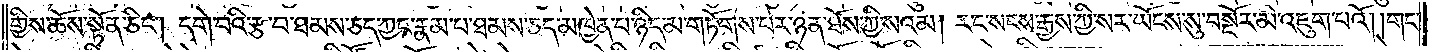གྱིས་ཆོས་སྟོན་ཅིང༌། དགེ་བའི་རྩ་བ་ཐམས་ཅད་ཀྱང་རྣམ་པ་ཐམས་ཅད་མཁྱེན་པ་ཉིད་མ་གཏོགས་པར་ཉན་ཐོས་ཀྱི་སའམ། རང་སངས་རྒྱས་ཀྱི་སར་ཡོངས་སུ་བསྔོར་མི་འཇུག་པའོ། །གང་
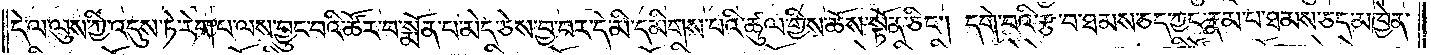དེ་ལ་ལུས་ཀྱི་འདུས་ཏེ་རེག་པ་ལས་བྱུང་བའི་ཚོར་བ་སྨོན་པ་མེད་ཅེས་བྱ་བར་དེ་མི་དམིགས་པའི་ཚུལ་གྱིས་ཆོས་སྟོན་ཅིང༌། དགེ་བའི་རྩ་བ་ཐམས་ཅད་ཀྱང་རྣམ་པ་ཐམས་ཅད་མཁྱེན་
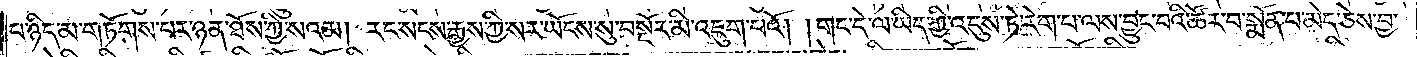པ་ཉིད་མ་གཏོགས་པར་ཉན་ཐོས་ཀྱི་སའམ། རང་སངས་རྒྱས་ཀྱི་སར་ཡོངས་སུ་བསྔོར་མི་འཇུག་པའོ། །གང་དེ་ལ་ཡིད་ཀྱི་འདུས་ཏེ་རེག་པ་ལས་བྱུང་བའི་ཚོར་བ་སྨོན་པ་མེད་ཅེས་བྱ་
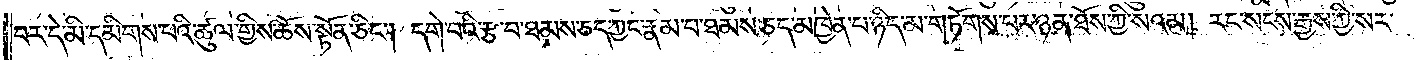བར་དེ་མི་དམིགས་པའི་ཚུལ་གྱིས་ཆོས་སྟོན་ཅིང༌། དགེ་བའི་རྩ་བ་ཐམས་ཅད་ཀྱང་རྣམ་པ་ཐམས་ཅད་མཁྱེན་པ་ཉིད་མ་གཏོགས་པར་ཉན་ཐོས་ཀྱི་སའམ། རང་སངས་རྒྱས་ཀྱི་སར་
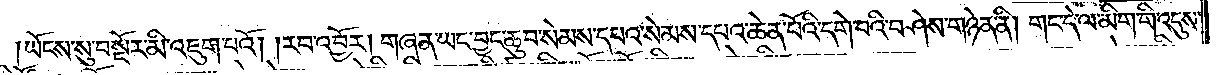ཡོངས་སུ་བསྔོར་མི་འཇུག་པའོ། །རབ་འབྱོར། གཞན་ཡང་བྱང་ཆུབ་སེམས་དཔའ་སེམས་དཔའ་ཆེན་པོའི་དགེ་བའི་བཤེས་གཉེན་ནི། གང་དེ་ལ་མིག་གི་འདུས་
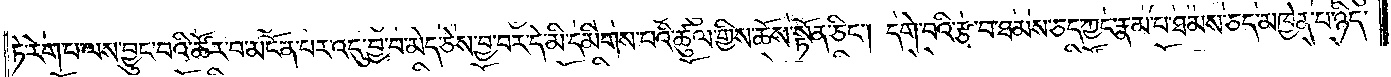ཏེ་རེག་པ་ལས་བྱུང་བའི་ཚོར་བ་མངོན་པར་འདུ་བྱ་བ་མེད་ཅེས་བྱ་བར་དེ་མི་དམིགས་པའི་ཚུལ་གྱིས་ཆོས་སྟོན་ཅིང༌། དགེ་བའི་རྩ་བ་ཐམས་ཅད་ཀྱང་རྣམ་པ་ཐམས་ཅད་མཁྱེན་པ་ཉིད་
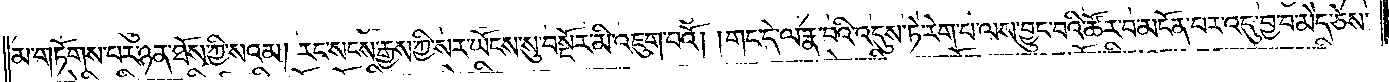མ་གཏོགས་པར་ཉན་ཐོས་ཀྱི་སའམ། རང་སངས་རྒྱས་ཀྱི་སར་ཡོངས་སུ་བསྔོར་མི་འཇུག་པའོ། །གང་དེ་ལ་རྣ་བའི་འདུས་ཏེ་རེག་པ་ལས་བྱུང་བའི་ཚོར་བ་མངོན་པར་འདུ་བྱ་བ་མེད་ཅེས་
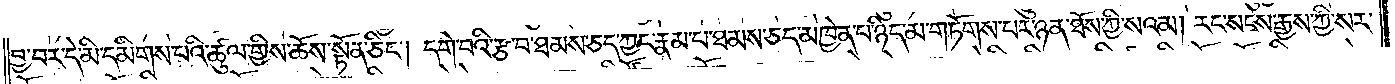བྱ་བར་དེ་མི་དམིགས་པའི་ཚུལ་གྱིས་ཆོས་སྟོན་ཅིང༌།དགེ་བའི་རྩ་བ་ཐམས་ཅད་ཀྱང་རྣམ་པ་ཐམས་ཅད་མཁྱེན་པ་ཉིད་མ་གཏོགས་པར་ཉན་ཐོས་ཀྱི་སའམ། རང་སངས་རྒྱས་ཀྱི་སར་
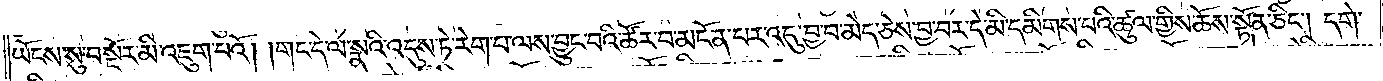ཡོངས་སུ་བསྔོར་མི་འཇུག་པའོ། །གང་དེ་ལ་སྣའི་འདུས་ཏེ་རེག་པ་ལས་བྱུང་བའི་ཚོར་བ་མངོན་པར་འདུ་བྱ་བ་མེད་ཅེས་བྱ་བར་དེ་མི་དམིགས་པའི་ཚུལ་གྱིས་ཆོས་སྟོན་ཅིང༌། དགེ་
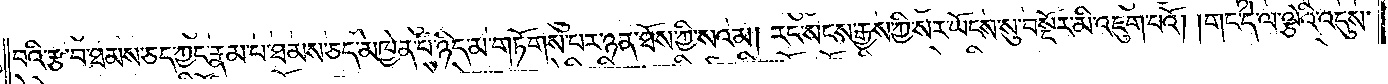བའི་རྩ་བ་ཐམས་ཅད་ཀྱང་རྣམ་པ་ཐམས་ཅད་མཁྱེན་པ་ཉིད་མ་གཏོགས་པར་ཉན་ཐོས་ཀྱི་སའམ། རང་སངས་རྒྱས་ཀྱི་སར་ཡོངས་སུ་བསྔོར་མི་འཇུག་པའོ། །གང་དེ་ལ་ལྕེའི་འདུས་
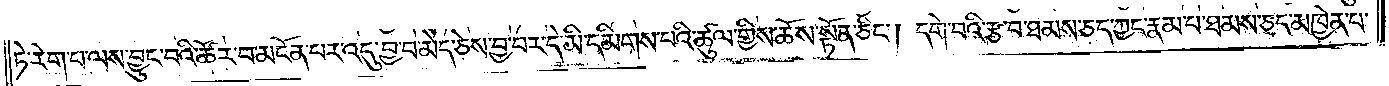ཏེ་རེག་པ་ལས་བྱུང་བའི་ཚོར་བ་མངོན་པར་འདུ་བྱ་བ་མེད་ཅེས་བྱ་བར་དེ་མི་དམིགས་པའི་ཚུལ་གྱིས་ཆོས་སྟོན་ཅིང༌། དགེ་བའི་རྩ་བ་ཐམས་ཅད་ཀྱང་རྣམ་པ་ཐམས་ཅད་མཁྱེན་པ་
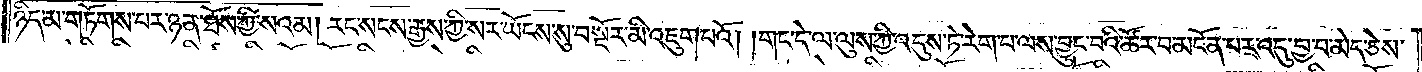ཉིད་མ་གཏོགས་པར་ཉན་ཐོས་ཀྱི་སའམ། རང་སངས་རྒྱས་ཀྱི་སར་ཡོངས་སུ་བསྔོར་མི་འཇུག་པའོ། །གང་དེ་ལ་ལུས་ཀྱི་འདུས་ཏེ་རེག་པ་ལས་བྱུང་བའི་ཚོར་བ་མངོན་པར་འདུ་བྱ་བ་མེད་ཅེས་
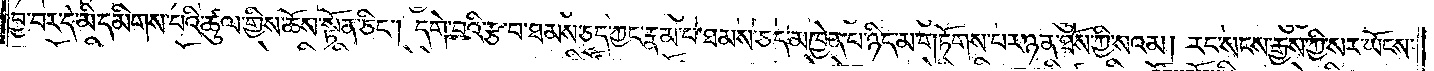བྱ་བར་དེ་མི་དམིགས་པའི་ཚུལ་གྱིས་ཆོས་སྟོན་ཅིང༌། དགེ་བའི་རྩ་བ་ཐམས་ཅད་ཀྱང་རྣམ་པ་ཐམས་ཅད་མཁྱེན་པ་ཉིད་མ་གཏོགས་པར་ཉན་ཐོས་ཀྱི་སའམ། རང་སངས་རྒྱས་ཀྱི་སར་ཡོངས་
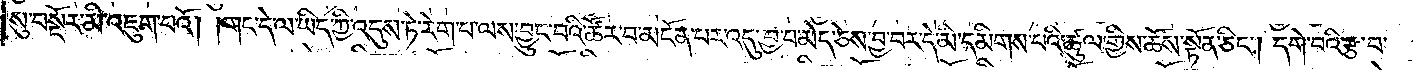སུ་བསྔོར་མི་འཇུག་པའོ། །གང་དེ་ལ་ཡིད་ཀྱི་འདུས་ཏེ་རེག་པ་ལས་བྱུང་བའི་ཚོར་བ་མངོན་པར་འདུ་བྱ་བ་མེད་ཅེས་བྱ་བར་དེ་མི་དམིགས་པའི་ཚུལ་གྱིས་ཆོས་སྟོན་ཅིང༌།དགེ་བའི་རྩ་བ་
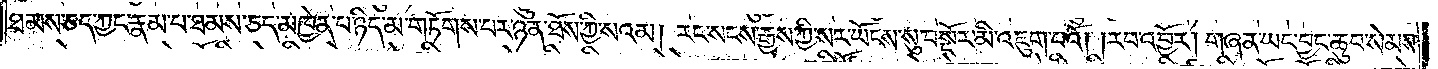ཐམས་ཅད་ཀྱང་རྣམ་པ་ཐམས་ཅད་མཁྱེན་པ་ཉིད་མ་གཏོགས་པར་ཉན་ཐོས་ཀྱི་སའམ། རང་སངས་རྒྱས་ཀྱི་སར་ཡོངས་སུ་བསྔོར་མི་འཇུག་པའོ། །རབ་འབྱོར། གཞན་ཡང་བྱང་ཆུབ་སེམས་
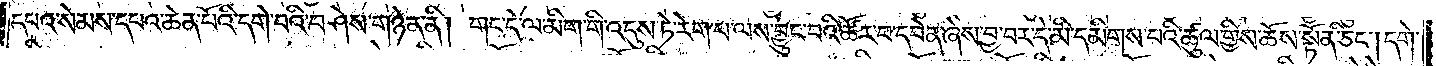དཔའ་སེམས་དཔའ་ཆེན་པོའི་དགེ་བའི་བཤེས་གཉེན་ནི།གང་དེ་ལ་མིག་གི་འདུས་ཏེ་རེག་པ་ལས་བྱུང་བའི་ཚོར་བ་དབེན་ཞེས་བྱ་བར་དེ་མི་དམིགས་པའི་ཚུལ་གྱིས་ཆོས་སྟོན་ཅིང༌། དགེ་
